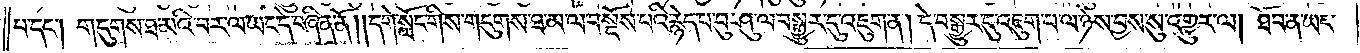པ་དང༌། གདུགས་ཐ་མའི་བར་ལ་ཡང་དེ་བཞིན་ནོ། །དགེ་སློང་གིས་གདུགས་ཐ་མ་ལ་བསྔོས་པའི་རྙེད་པ་བུ་ཤུ་ལ་བསྒྱུར་དུ་འཇུག་ན། དེ་བསྒྱུར་དུ་འཇུག་པ་ལ་ཉེས་བྱས་སུ་འགྱུར་ལ། ཐོབ་ན་ཡང་
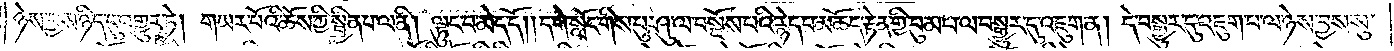ཉེས་བྱས་ཉིད་དུ་འགྱུར་ཏེ། གཡར་པོའི་ཆོས་ཀྱི་སྦྱིན་པ་ལ་ནི། ལྟུང་བ་མེད་དོ། །དགེ་སློང་གིས་པུ་ཤུ་ལ་བསྔོས་པའི་རྙེད་པ་མཆོད་རྟེན་གྱི་བུམ་པ་ལ་བསྒྱུར་དུ་འཇུག་ན། དེ་བསྒྱུར་དུ་འཇུག་པ་ལ་ཉེས་བྱས་སུ་
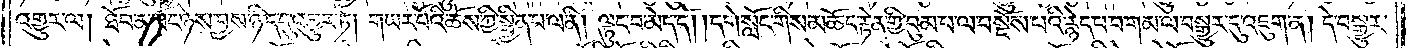འགྱུར་ལ། ཐོབ་ན་ཡང་ཉེས་བྱས་ཉིད་དུ་འགྱུར་ཏེ། གཡར་པོའི་ཆོས་ཀྱི་སྦྱིན་པ་ལ་ནི། ལྟུང་བ་མེད་དོ། །དགེ་སློང་གིས་མཆོད་རྟེན་གྱི་བུམ་པ་ལ་བསྔོས་པའི་རྙེད་པ་བ་གམ་ལ་བསྒྱུར་དུ་འཇུག་ན། དེ་བསྒྱུར་
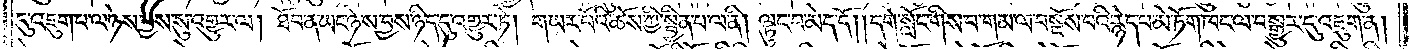དུ་འཇུག་པ་ལ་ཉེས་བྱས་སུ་འགྱུར་ལ། ཐོབ་ན་ཡང་ཉེས་བྱས་ཉིད་དུ་འགྱུར་ཏེ། གཡར་པོའི་ཆོས་ཀྱི་སྦྱིན་པ་ལ་ནི། ལྟུང་བ་མེད་དོ། །དགེ་སློང་གིས་བ་གམ་ལ་བསྔོས་པའི་རྙེད་པ་མེ་ཏོག་ཁང་ལ་བསྒྱུར་དུ་འཇུག་ན།
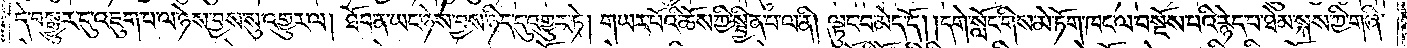དེ་བསྒྱུར་དུ་འཇུག་པ་ལ་ཉེས་བྱས་སུ་འགྱུར་ལ། ཐོབ་ན་ཡང་ཉེས་བྱས་ཉིད་དུ་འགྱུར་ཏེ། གཡར་པོའི་ཆོས་ཀྱི་སྦྱིན་པ་ལ་ནི། ལྟུང་བ་མེད་དོ། །དགེ་སློང་གིས་མེ་ཏོག་ཁང་ལ་བསྔོས་པའི་རྙེད་པ་ཐེམ་སྐས་ཀྱི་གཞི་
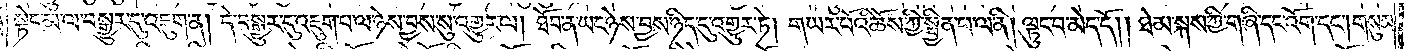སྟེང་མ་ལ་བསྒྱུར་དུ་འཇུག་ན། དེ་བསྒྱུར་དུ་འཇུག་པ་ལ་ཉེས་བྱས་སུ་འགྱུར་ལ། ཐོབ་ན་ཡང་ཉེས་བྱས་ཉིད་དུ་འགྱུར་ཏེ། གཡར་པོའི་ཆོས་ཀྱི་སྦྱིན་པ་ལ་ནི། ལྟུང་བ་མེད་དོ། །ཐེམ་སྐས་ཀྱི་གཞི་དང་འོག་དང༌། གསུམ་
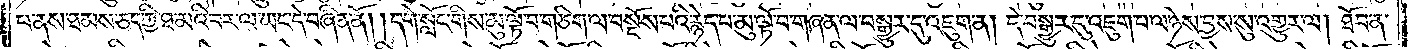པ་ནས་ཐམས་ཅད་ཀྱི་ཐ་མའི་བར་ལ་ཡང་དེ་བཞིན་ནོ། །དགེ་སློང་གིས་མུ་ལྟོ་བ་གཅིག་ལ་བསྔོས་པའི་རྙེད་པ་མུ་ལྟོ་བ་གཞན་ལ་བསྒྱུར་དུ་འཇུག་ན། དེ་བསྒྱུར་དུ་འཇུག་པ་ལ་ཉེས་བྱས་སུ་འགྱུར་ལ། ཐོབ་ན་
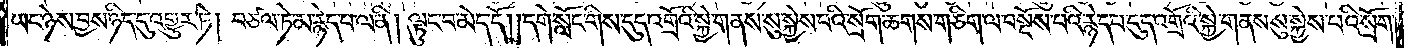ཡང་ཉེས་བྱས་ཉིད་དུ་འགྱུར་ཏེ། བཙལ་ཏེ་མ་རྙེད་པ་ལ་ནི། ལྟུང་བ་མེད་དོ། །དགེ་སློང་གིས་དུད་འགྲོའི་སྐྱེ་གནས་སུ་སྐྱེས་པའི་སྲོག་ཆགས་གཅིག་ལ་བསྔོས་པའི་རྙེད་པ་དུད་འགྲོའི་སྐྱེ་གནས་སུ་སྐྱེས་པའི་སྲོག་
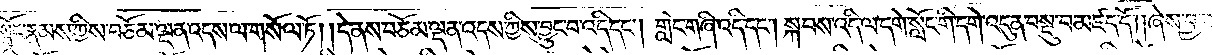དེ༑ དགེ་སློང་རྣམས་ཀྱིས་བཅོམ་ལྡན་འདས་ལ་གསོལ་ཏོ། །དེ་ནས་བཅོམ་ལྡན་འདས་ཀྱིས་བྱུང་བ་འདི་དང༌། གླེང་གཞི་འདི་དང༌། སྐབས་འདི་ལ་དགེ་སློང་གི་དགེ་འདུན་བསྡུ་བ་མཛད་དོ། །ཞེས་བྱ་བ་ལ་སོགས་
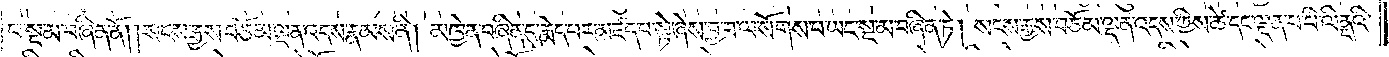པ་སྔ་མ་བཞིན་ནོ། སངས་རྒྱས་བཅོམ་ལྡན་འདས་རྣམས་ནི། མཁྱེན་བཞིན་དུ་རྨེད་པར་མཛད་པ་སྟེ་ཞེས་བྱ་བ་ལ་སོགས་པ་ཡང་སྔ་མ་བཞིན་ཏེ། སངས་རྒྱས་བཅོམ་ལྡན་འདས་ཀྱིས་ཚེ་དང་ལྡན་པ་པི་ལིནྡའི་
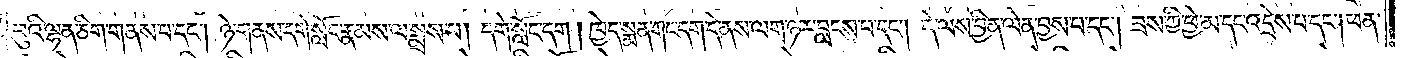བུའི་ལྷན་ཅིག་གནས་པ་དང༌། ཉེ་གནས་དགེ་སློང་རྣམས་ལ་སྨྲས་པ། དགེ་སློང་དག །ཁྱེད་སྨན་གང་དག་དེ་ནས་ལག་ཉར་བླངས་པ་དང༌། དེ་ལས་བྱིན་ལེན་བྱས་པ་དང༌། ཟས་ཀྱི་ཕྱེ་མ་དང་འདྲེས་པ་དང༌། ཕན་
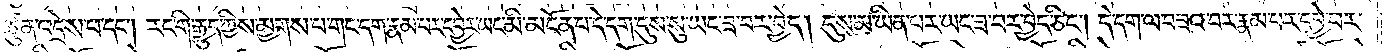ཚུན་འདྲེས་པ་དང༌། རང་གི་རྒྱུད་ཀྱིས་མྱགས་པ་གང་དག་རྣམ་པར་དབྱེར་ཡང་མི་མངོན་པ་དེ་དག་དུས་སུ་ཡང་ཟ་བར་བྱེད། དུས་མ་ཡིན་པར་ཡང་ཟ་བར་བྱེད་ཅིང༌། དེ་དག་ལ་བཟའ་བར་རྣམ་པར་དབྱེ་བར་
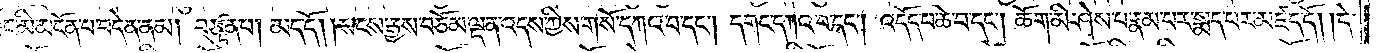ཡང་མི་མངོན་པ་བདེན་ནམ། བཙུན་པ། མད་དོ། །སངས་རྒྱས་བཅོམ་ལྡན་འདས་ཀྱིས་གསོ་དཀའ་བ་དང༌། དགང་དཀའ་བ་དང༌། འདོད་པ་ཆེ་བ་དང༌། ཆོག་མི་ཤེས་པ་རྣམ་པར་སྨད་པར་མཛད་དོ། །དེ་
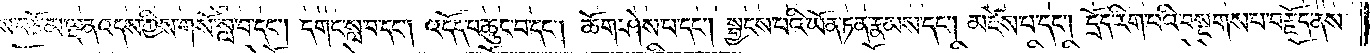ནས་བཅོམ་ལྡན་འདས་ཀྱིས་གསོ་སླ་བ་དང༌། དགང་སླ་བ་དང༌། འདོད་པ་ཆུང་བ་དང༌། ཆོག་ཤེས་པ་དང༌། སྦྱངས་པའི་ཡོན་ཏན་རྣམས་དང༌། མཛེས་པ་དང༌། དྲོད་རིག་པའི་བསྔགས་པ་བརྗོད་ནས་
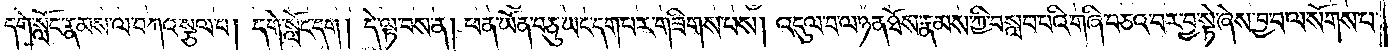དགེ་སློང་རྣམས་ལ་བཀའ་སྩལ་པ། དགེ་སློང་དག། དེ་ལྟ་བས་ན། ཕན་ཡོན་བཅུ་ཡང་དག་པར་གཟིགས་པས། འདུལ་བ་ལ་ཉན་ཐོས་རྣམས་ཀྱིས་བསླབ་པའི་གཞི་བཅའ་བར་བྱ་སྟེ་ཞེས་བྱ་བ་ལ་སོགས་པ་
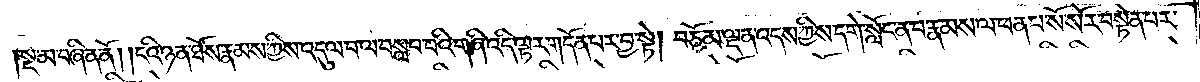སྔ་མ་བཞིན་ནོ། །ངའི་ཉན་ཐོས་རྣམས་ཀྱིས་འདུལ་བ་ལ་བསླབ་པའི་གཞི་འདི་ལྟར་གདོན་པར་བྱ་སྟེ། བཅོམ་ལྡན་འདས་ཀྱིས་དགེ་སློང་ན་བ་རྣམས་ལ་ཕན་པ་སོ་སོར་བསྟེན་པར་
